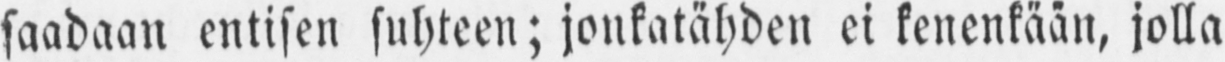saadaan entisen suhteen; jonkatähden ei kenenkään, jolla
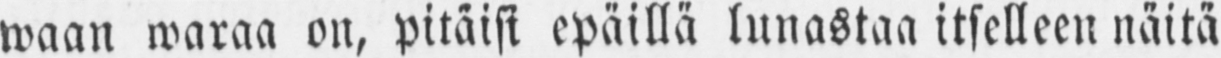waan waraa on, pitäisi epäillä lunastaa itselleen näitä
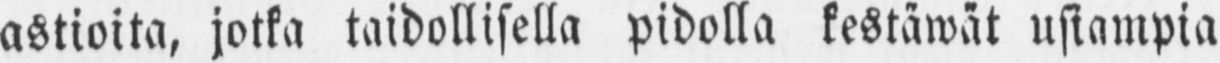astioita, jotka taidollisella pidolla kestäwät usiampia
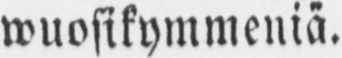wuosikymmeniä.
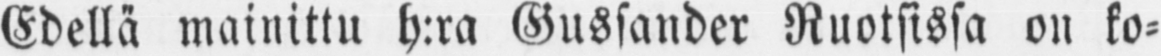Edellä mainittu h:ra Gussander Ruotsissa on ko-
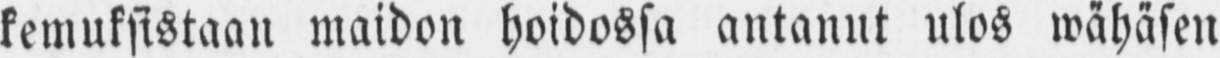kemuksistaan maidon hoidossa antanut ulos wähäsen
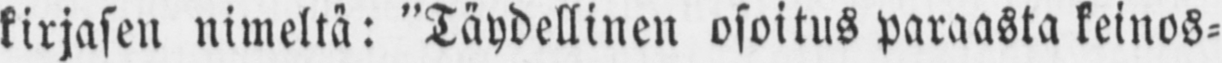kirjasen nimeltä: "Täydellinen osoitus paraasta keinos-
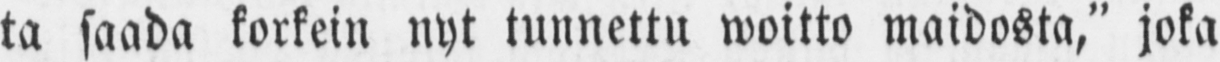ta saada korkein nyt tunnettu woitto maidosta," joka
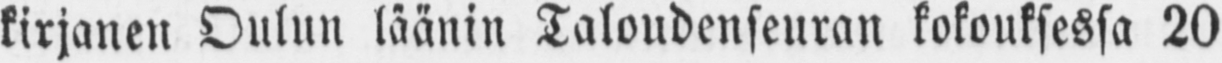kirjanen Oulun läänin Taloudenseuran kokouksessa 20
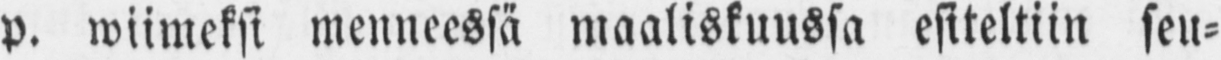p. wiimeksi menneessä maaliskuussa esiteltiin seu-
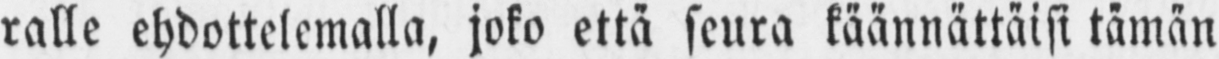ralle ehdottelemalla, joko että seura käännättäisi tämän
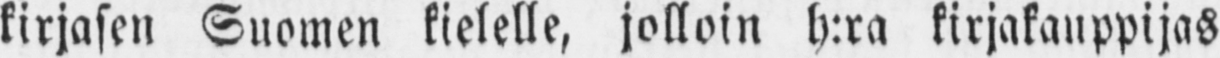kirjasen Suomen kielelle, jolloin b:ra kirjakanppijaS
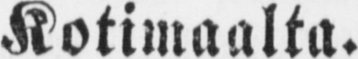Kotimaalta.
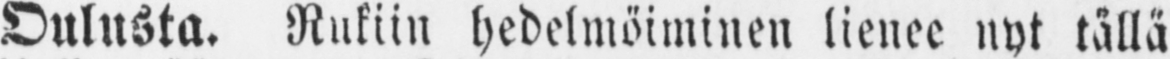Oulusta. Rukiin hedelmöiminen lienee nyt tällä
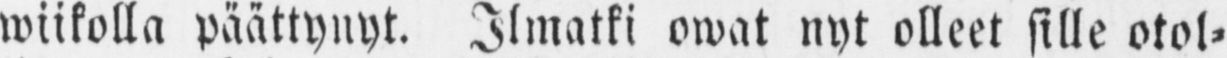wiikolla päättynyt. Ilmatki owat nyt olleet sille otol-
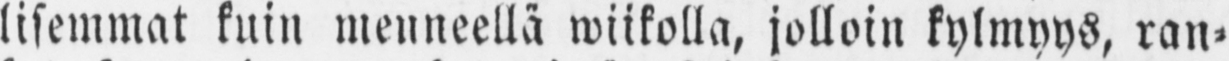lisemmat kuin menneellä wiikolla, jolloin kylmyys, ran-
